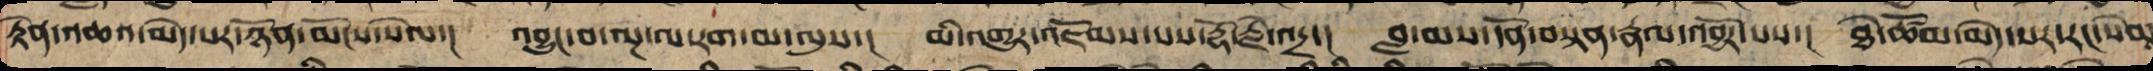རྟེན་འཆའ་མེད་པར་ཉོན་མོངས་སེལ་། འབྱུང་བ་ལྔ་ལ་རག་མ་ལུས་། མི་འགྱུར་འཇོམས་པས་རྡོ་རྗེ་འདྲ་། བླ་མས་དོན་བསྟན་རྣལ་འབྱོར་པས་། ཐེ་ཚོམ་མེད་པར་རང་སེམ
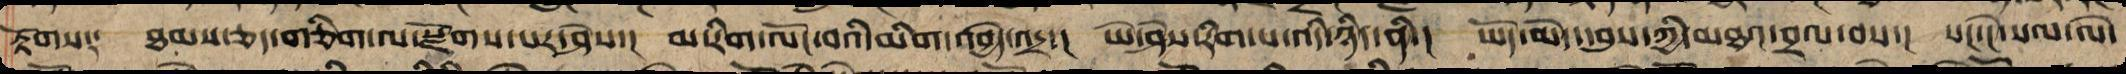རྟོགས༑ ཐམས་ཅད་གཅིག་ལ་སྫོགས་པར་ཤེས་། མ་རིག་ལོང་བའི་མིག་འབྱེད་འདྲ་། ཡེ་ཤེས་རིག་པ་འདི་ཉིད་ནི་། ཡོད་མེད་དབུས་ཀྱི་མཐའ་བྲལ་བས་། སང་ངེ་སལ་ལེ་
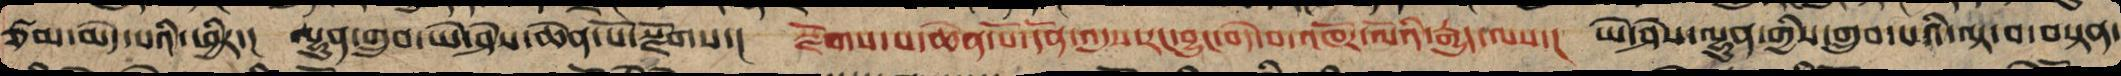ཙམ་མེད་པའི་ཕྱིར།་ ལྷུན་གྲུབ་ཡེ་ཤེས་ཆེན་པོར་སྫོགས་། སྫོགས་པ་ཆེན་པོ་དོན་འདུས་རང་བྱུང་བདེ་བའི་འཁོར་ལོའི་རྒྱུད་ལས་། ཡེ་ཤེས་ལྷུན་གྱིས་གྲུབ་པའི་ལྟ་བ་བསྟན་
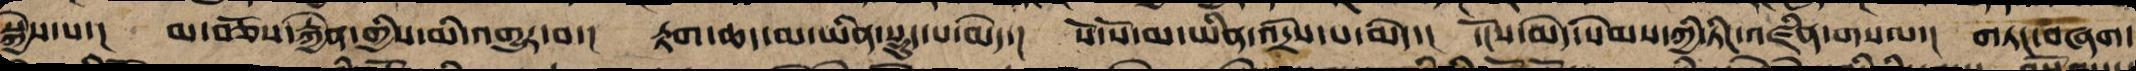སྐྱེས་པ་། མ་བཅོས་རྐྱེན་གྱིས་མི་འགྱུར་བ་། རྟག་ཆད་མ་ཡིན་སྡུད་པ་མེད་། སོ་སོ་མ་ཡིན་འདྲེས་པ་མེད་། དངོས་མེད་སེམས་ཀྱི་ཏིང་འཛིན་གསལ་། གཏང་བཞག་
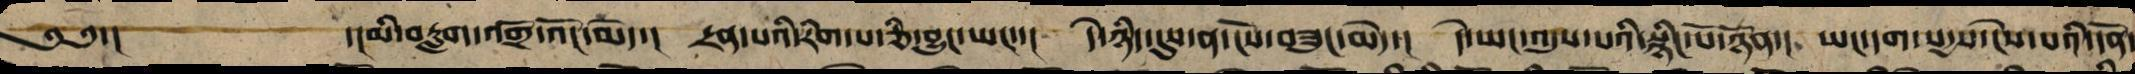༄༅་། ་།མི་བརླག་འགྲོ་འོང་མེད་། དྲན་པའི་རིག་པ་ཅི་འབྱུང་ཡང་་། དེ་ཉིད་དུས་ན་ངོས་གཟུང་མེད་། དེ་ཡང་འདུས་པའི་སྙིང་པོ་ཉོན་། ཡང་དག་སདྱས་ངེས་པའི་དོན་
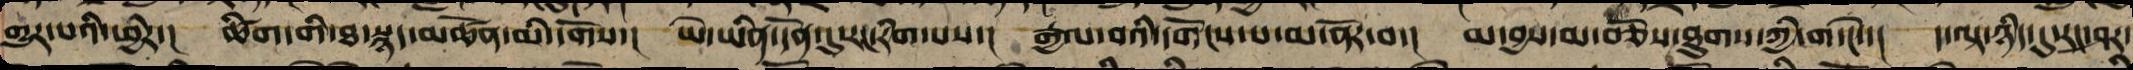གྱུར་པའི་ཕྱིར་། ཚིག་གི་ཐ་སྙད་མཚོན་མི་དགོས་། ཡེ་ཡིན་དོན་དུ་རང་རིག་པས་། རྒྱལ་བའི་དགོངས་པ་མ་ནོར་བ་། མ་བྱས་མ་བཅོས་ཐུགས་ཀྱི་གདེང་། ད་ལྟ་ཉིད་དུ་རང་ཤར་
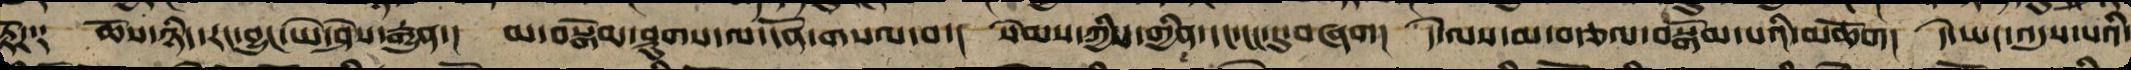རྟོཌ༑ ཆོས་ཉིད་རང་བྱུང་ཡེ་ཤེས་རྒྱུན་། མ་བསྒོམ་ཤུགས་ལ་དོན་གསལ་བ་། སེམས་ཀྱིས་གྱིན་དང་ངང་དུ་བཞག། དེ་ལས་མ་བཙལ་བསྒོམ་པའི་མཆོག། དེ་ཡང་འདུས་པའི་
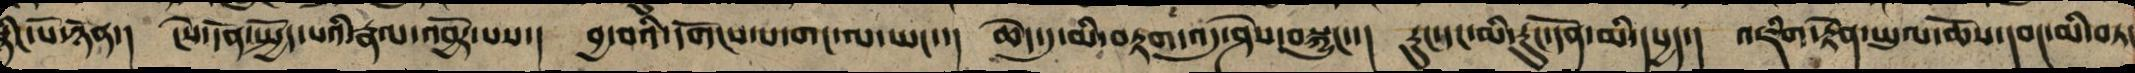སྙིང་པོ་ཉོན་། ངེས་དོན་སྤྱོད་པའི་རྣལ་འབྱོར་པས་། བྱ་བའི་དགོངས་པ་གང་ལ་ཡང་་། ཆེད་དུ་མི་བརྟག་འདུ་ཤེས་བསྐྱུང་་། རུང་དང་མི་རུང་དོན་མི་དཔྱད་། འཇིག་རྟེན་ཡུལ་ཆོས་དབང་མི་བཏང
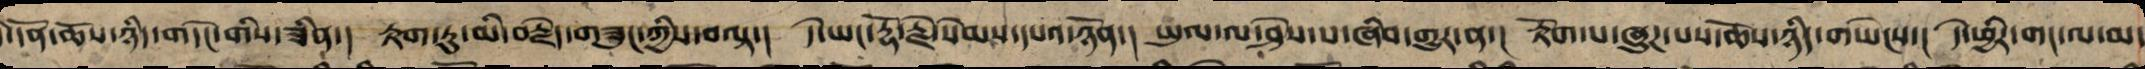་དོན་ཆོས་ཉིད་གདོང་གིས་ཟིན་། རྟག་ཏུ་མི་བརྗེད་གཟུངས་ཀྱིས་བལྟ་། དེ་ཡང་རྡོ་རྗེ་སེམས་དཔའ་ཉོན་། ཡུལ་ལ་ཤེས་པ་ཞིབ་གྱུར་ན་། རྟོག་པ་ཞུཌ་པས་ཆོས་ཉིད་གཡེངས་། དེ་ཕྱིར་གང་ལ་མ་
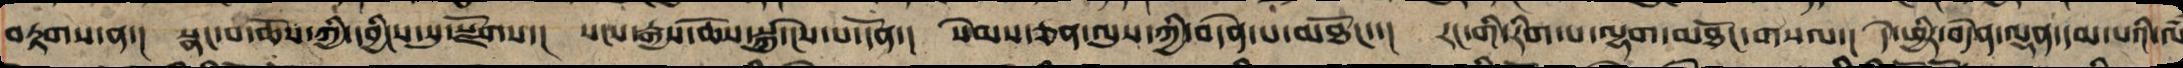བརྟགས་ན་། སྣང་བ་ཆོས་ཀྱི་དབྱིངས་སུ་སྫོགས་། སངས་རྒྱས་ཆོས་སྐུ་ངེས་པའི་དོན་། སེམས་ཅན་ལུས་ཀྱིས་བདེན་པ་མཐོང་་། རང་གི་རིག་པ་ལྷག་མཐོང་གསལ་། དེ་ཕྱིར་བདེ་ལྡན་དམ་པའི་ལཾ
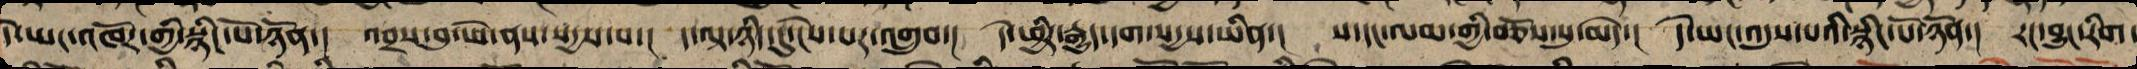དེ་ཡང་འཁོར་གྱི་སྙིང་པོ་ཉོན་། འབྲས་བུ་ཡེ་ནས་སདྱས་པ་། ད་ལྟ་ཉིད་དུ་ངེས་པར་འགྲུབ་། དེ་ཕྱིར་རྒྱུད་དག་སདྱས་ཡིན་། ས་དང་ལམ་གྱིས་བཅོས་སུ་མེད་། དེ་ཡང་འདུས་པའི་སྙིང་པོ་ཉོན་། རང་བྱུང་རིག་
